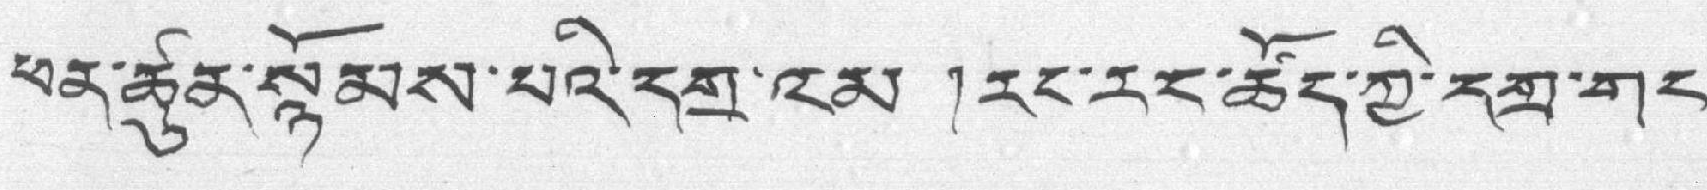ཕན་ཚུན་སྙོམས་པའི་དགྲ་འམ ། རང་རར་ཚོད་ཀྱི་དགྲ་གང་
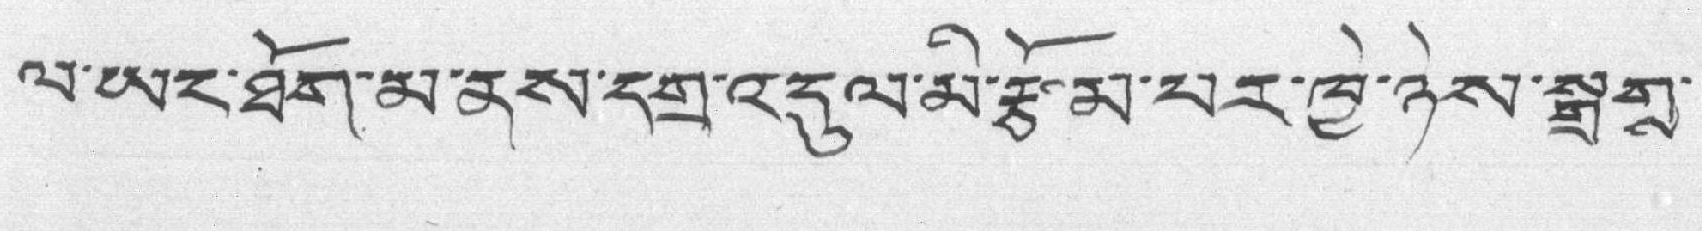ལ་ཡང་ཐོག་མ་ནས་དགྲ་འདུལ་མི་རྩོམ་པར་ཁྱེ་ཉེས་སྒྲགས་
